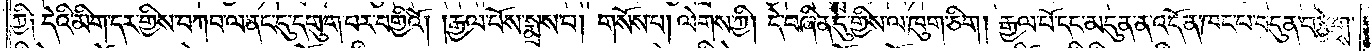ཀྱི༑ དེའི་མིག་དར་གྱིས་བཀབ་ལ་ནང་དུ་དགུག་པར་བགྱིའོ། །རྒྱལ་པོས་སྨྲས་པ། གསོས་པ། ལེགས་ཀྱི། དེ་བཞིན་དུ་གྱིས་ལ་ཁུག་ཅིག། རྒྱལ་པོ་དང་མདུན་ན་འདོན་ཁང་པ་བདུན་བརྩེགས་
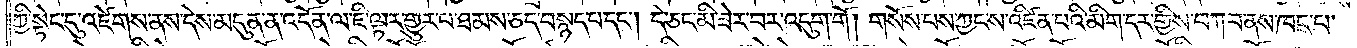ཀྱི་སྟེང་དུ་འཛེགས་ནས་དེས་མདུན་ན་འདོན་ལ་ཇི་ལྟར་གྱུར་པ་ཐམས་ཅད་བསྙད་པ་དང༌། དེ་ཅང་མི་ཟེར་བར་འདུག་གོ། གསོས་པས་ཀྱང་ས་འཛིན་པའི་མིག་དར་གྱིས་བཀབ་ནས་ཁང་པ་
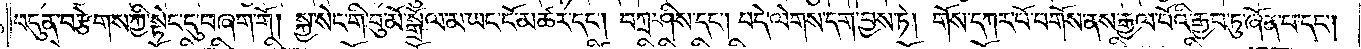བདུན་བརྩེགས་ཀྱི་སྟེང་དུ་བཞག་གོ། སྐྱ་སེང་གི་བུ་མོ་སྒྲོལ་མ་ཡང་ངོ་མཚར་དང༌། བཀྲ་ཤིས་དང༌། བདེ་ལེགས་དག་བྱས་ཏེ། གོས་དཀར་པོ་བགོས་ནས་རྒྱལ་པོའི་རྒྱབ་ཏུ་ཞོན་པ་དང༌།
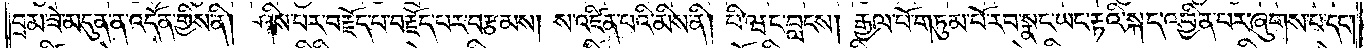བྲམ་ཟེ་མདུན་ན་འདོན་གྱིས་ནི། ཤིས་པར་བརྗོད་པ་བརྗོད་པར་བརྩམས། ས་འཛིན་པའི་མིས་ནི། པི་ཝང་བླངས། རྒྱལ་པོ་གཏུམ་པོ་རབ་སྣང་ཡང་རྟའི་སྐད་འབྱིན་པར་ཞུགས་པ་དང༌།
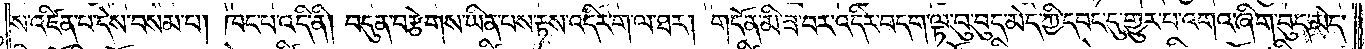ས་འཛིན་པ་དེས་བསམ་པ། ཁང་པ་འདི་ནི། བདུན་བརྩེགས་ཡིན་པས་རྟས་འདིར་ག་ལ་ཐར། གདོན་མི་ཟ་བར་འདིར་བདག་ལྟ་བུ་བུད་མེད་ཀྱི་དབང་དུ་གྱུར་པ་འགའ་ཞིག་བུད་མེད་
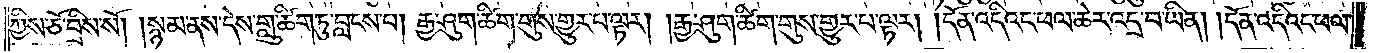ཀྱིས་ཅོ་བྲིས་སོ། །སྙམ་ནས་དེས་གླུ་ཚིག་ཏུ་བླངས་པ། རྒྱ་ཤུག་ཚིག་གུས་གྱུར་པ་ལྟར། །རྒྱ་ཤུག་ཚིག་གུས་གྱུར་པ་ལྟར། །དོན་འདིའང་ཕལ་ཆེར་འདྲ་བ་ཡིན། །དོན་འདིའང་ཕལ་
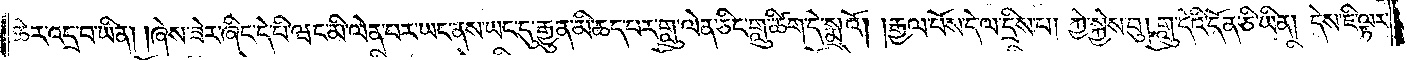ཆེར་འདྲ་བ་ཡིན། །ཞེས་ཟེར་ཞིང་དེ་པི་ཝང་མི་ལེན་པར་ཡང་ནས་ཡང་དུ་རྒྱུན་མི་ཆད་པར་གླུ་ལེན་ཅིང་གླུ་ཚིག་དེ་སྨྲའོ། །རྒྱལ་པོས་དེ་ལ་དྲིས་པ། ཀྱེ་སྐྱེས་བུ། གླུ་དེའི་དོན་ཅི་ཡིན། དེས་ཇི་ལྟར་
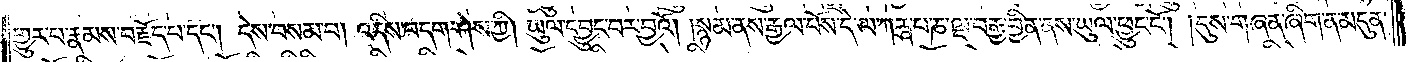གྱུར་པ་རྣམས་བརྗོད་པ་དང༌། དེས་བསམ་པ། འདིས་བདག་ཤེས་ཀྱི། ཡུལ་དབྱུང་བར་བྱའོ། །སྙམ་ནས་རྒྱལ་པོས་དེ་ལ་ཀཪྴ་པ་ཎ་ལྔ་བརྒྱ་བྱིན་ནས་ཡུལ་ཕྱུང་ངོ༌། །དུས་གཞན་ཞིག་ན་མདུན་
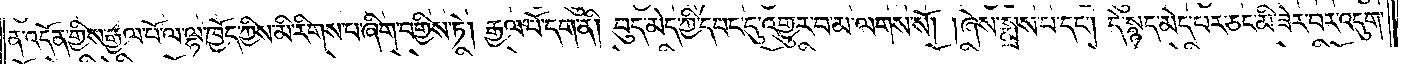ན་འདོན་གྱིས་རྒྱལ་པོ་ལ་ལྷ་ཁྱོད་ཀྱིས་མི་རིགས་པ་ཞིག་བགྱིས་ཏེ། རྒྱལ་པོ་དག་ནི། བུད་མེད་ཀྱི་དབང་དུ་འགྱུར་བ་མ་ལགས་སོ། །ཞེས་སྨྲས་པ་དང༌། དེ་སྙད་མེད་པར་ཅང་མི་ཟེར་བར་འདུག་
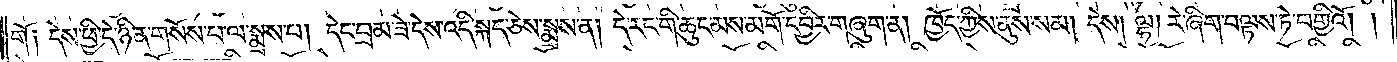གོ༑ དེས་ཕྱི་དེ་ཉིན་གསོས་པ་ལ་སྨྲས་པ། དེང་བྲམ་ཟེ་དེས་འདི་སྐད་ཅེས་སྨྲས་ན། དེ་རང་གི་ཆུང་མས་མགོ་དབྱིར་གཞུག་ན། ཁྱོད་ཀྱིས་ནུས་སམ། དེས། ལྷ། རེ་ཞིག་བལྟས་ཏེ་བགྱིའོ། །
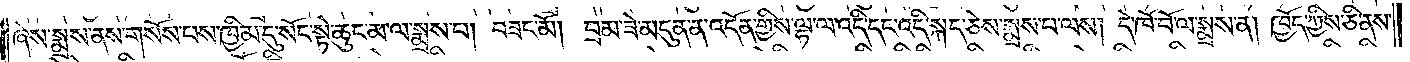ཞེས་སྨྲས་ནས་གསོས་པས་ཁྱིམ་དུ་སོང་སྟེ་ཆུང་མ་ལ་སྨྲས་པ། བཟང་མོ། བྲམ་ཟེ་མདུན་ན་འདོན་གྱིས་ལྷ་ལ་འདི་དང་འདི་སྐད་ཅེས་སྨྲས་པ་ལས། དེ་ཁོ་བོ་ལ་སྨྲས་ན། ཁྱོད་ཀྱིས་ཅི་ནས་
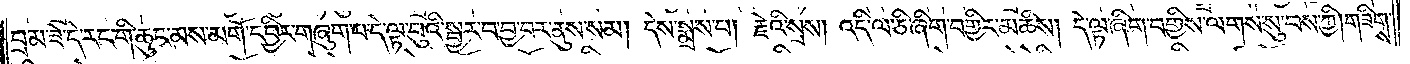བྲམ་ཟེ་དེ་རང་གི་ཆུང་མས་མགོ་དབྱིར་གཞུག་པ་དེ་ལྟ་བུའི་སྦྱར་བ་བྱ་བར་ནུས་སམ། དེས་སྨྲས་པ། རྗེའི་སྲས། འདི་ལ་ཅི་ཞིག་བགྱིར་མཆིས། དེ་ལྟ་ཞིག་བགྱིས་ལགས་སུ་བས་ཀྱི། གཟིགས་
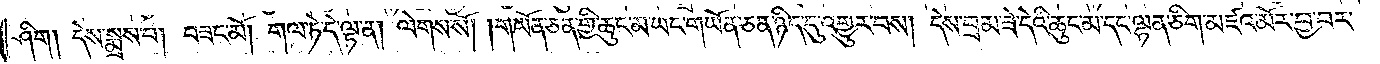ཤིག། དེས་སྨྲས་པ། བཟང་མོ། གལ་ཏེ་དེ་ལྟ་ན། ལེགས་སོ། །གཡོན་ཅན་གྱི་ཆུང་མ་ཡང་གཡོན་ཅན་ཉིད་དུ་འགྱུར་བས། དེས་བྲམ་ཟེ་དེའི་ཆུང་མ་དང་ལྷན་ཅིག་མཛའ་མོར་བྱ་བར་
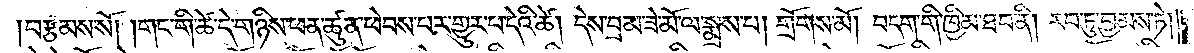བརྩམས་སོ། །གང་གི་ཚེ་དེ་གཉིས་ཕན་ཚུན་ཕེབས་པར་གྱུར་པ་དེའི་ཚེ། དེས་བྲམ་ཟེ་མོ་ལ་སྨྲས་པ། གྲོགས་མོ། བདག་གི་ཁྱིམ་ཐབ་ནི། རབ་ཏུ་བྱམས་ཏེ།
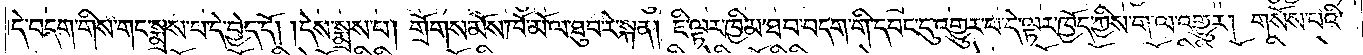དེ་བདག་གིས་གང་སྨྲས་པ་དེ་བྱེད་དོ། །དེས་སྨྲས་པ། གྲོགས་མོས་ཁོ་མོ་ལ་ཐུབ་རེ་སྐན། ཇི་ལྟར་ཁྱིམ་ཐབ་བདག་གི་དབང་དུ་འགྱུར་བ་དེ་ལྟར་ཁྱོད་ཀྱིས་ག་ལ་འགྱུར། གསོས་པའི་
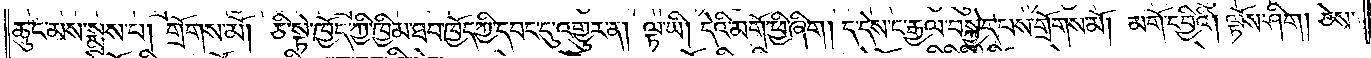ཆུང་མས་སྨྲས་པ། གྲོགས་མོ། ཅི་སྟེ་ཁྱོད་ཀྱི་ཁྱིམ་ཐབ་ཁྱོད་ཀྱི་དབང་དུ་འགྱུར་ན། ལྟ་ཡི། དེའི་མགོ་ཕྱི་ཞིག། ད་དེས་ང་རྒྱལ་བསྐྱེད་པས་གྲོགས་མོ། མགོ་དབྱིའོ། །ལྟོས་ཤིག། ཅེས་
